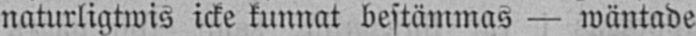naturligtwis icke kunnat bestämmas — wäntade
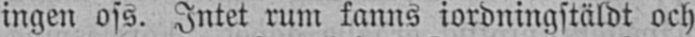ingen oss. Intet rum fanns iordningstäldt och
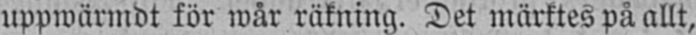uppwärmdt för wår räkning. Det märktes på allt,
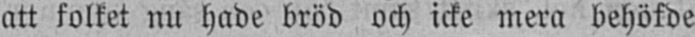att folket nu hade bröd och icke mera behöfde
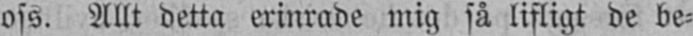oss. Allt detta erinrade mig så lifligt de be-
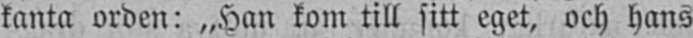kanta orden: „Han kom till sitt eget, och hans
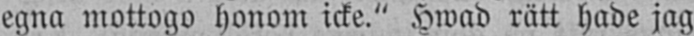egna mottogo honom icke." Hwad rätt hade jag
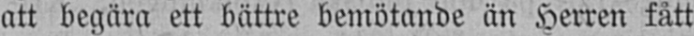att begära ett bättre bemötande än Herren fått
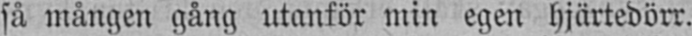så mången gång utanför min egen hjärtedörr.
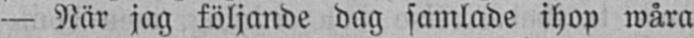— När jag följande dag samlade ihop wåra
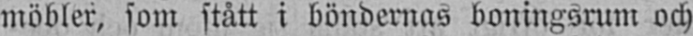möbler, som stått i böndernas boningsrum och
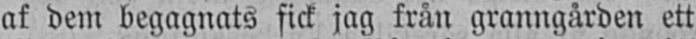af dem begagnats fick jag från granngården ett
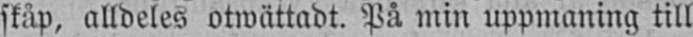skåp, alldeles otwättadt. På min uppmaning till
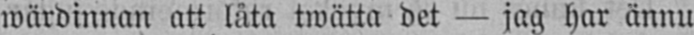wärdinnan att låta twätta det — jag har ännu
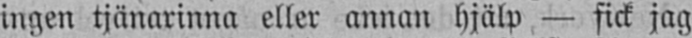ingen tjänarinna eller annan hjälp — fick jag
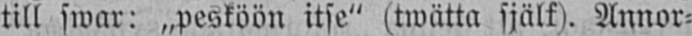till swar: „pesköön itse" (twätta själf). Annor-
